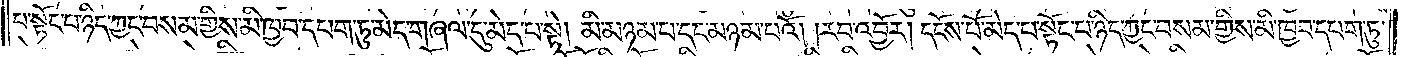པ་སྟོང་པ་ཉིད་ཀྱང་བསམ་གྱིས་མི་ཁྱབ་དཔག་ཏུ་མེད་གཞལ་དུ་མེད་པ་སྟེ། མི་མཉམ་པ་དང་མཉམ་པའོ། །རབ་འབྱོར། དངོས་པོ་མེད་པ་སྟོང་པ་ཉིད་ཀྱང་བསམ་གྱིས་མི་ཁྱབ་དཔག་ཏུ་
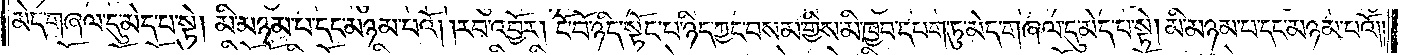མེད་གཞལ་དུ་མེད་པ་སྟེ། མི་མཉམ་པ་དང་མཉམ་པའོ། །རབ་འབྱོར། ངོ་བོ་ཉིད་སྟོང་པ་ཉིད་ཀྱང་བསམ་གྱིས་མི་ཁྱབ་དཔག་ཏུ་མེད་གཞལ་དུ་མེད་པ་སྟེ། མི་མཉམ་པ་དང་མཉམ་པའོ། །
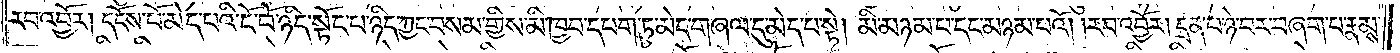རབ་འབྱོར། དངོས་པོ་མེད་པའི་ངོ་བོ་ཉིད་སྟོང་པ་ཉིད་ཀྱང་བསམ་གྱིས་མི་ཁྱབ་དཔག་ཏུ་མེད་གཞལ་དུ་མེད་པ་སྟེ། མི་མཉམ་པ་དང་མཉམ་པའོ། །རབ་འབྱོར། དྲན་པ་ཉེ་བར་བཞག་པ་རྣམས་
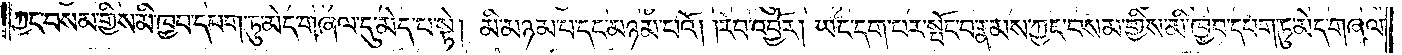ཀྱང་བསམ་གྱིས་མི་ཁྱབ་དཔག་ཏུ་མེད་གཞལ་དུ་མེད་པ་སྟེ། མི་མཉམ་པ་དང་མཉམ་པའོ། །རབ་འབྱོར། ཡང་དག་པར་སྤོང་བ་རྣམས་ཀྱང་བསམ་གྱིས་མི་ཁྱབ་དཔག་ཏུ་མེད་གཞལ་
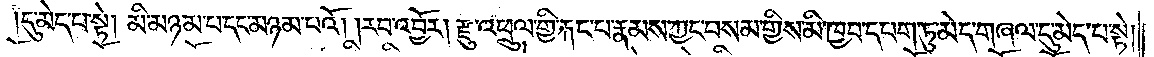དུ་མེད་པ་སྟེ། མི་མཉམ་པ་དང་མཉམ་པའོ། །རབ་འབྱོར།རྫུ་འཕྲུལ་གྱི་རྐང་པ་རྣམས་ཀྱང་བསམ་གྱིས་མི་ཁྱབ་དཔག་ཏུ་མེད་གཞལ་དུ་མེད་པ་སྟེ།
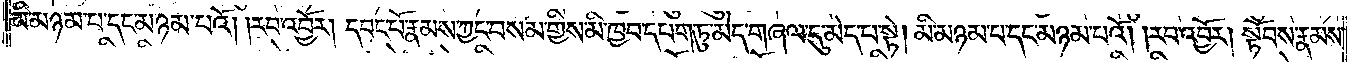མི་མཉམ་པ་དང་མཉམ་པའོ། །རབ་འབྱོར།དབང་པོ་རྣམས་ཀྱང་བསམ་གྱིས་མི་ཁྱབ་དཔག་ཏུ་མེད་གཞལ་དུ་མེད་པ་སྟེ། མི་མཉམ་པ་དང་མཉམ་པའོ། །རབ་འབྱོར། སྟོབས་རྣམས་
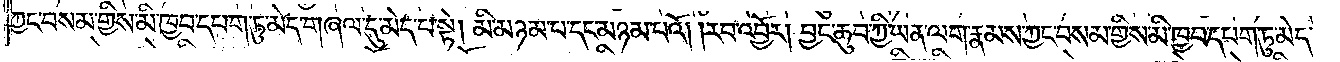ཀྱང་བསམ་གྱིས་མི་ཁྱབ་དཔག་ཏུ་མེད་གཞལ་དུ་མེད་པ་སྟེ། མི་མཉམ་པ་དང་མཉམ་པའོ། །རབ་འབྱོར། བྱང་ཆུབ་ཀྱི་ཡན་ལག་རྣམས་ཀྱང་བསམ་གྱིས་མི་ཁྱབ་དཔག་ཏུ་མེད་
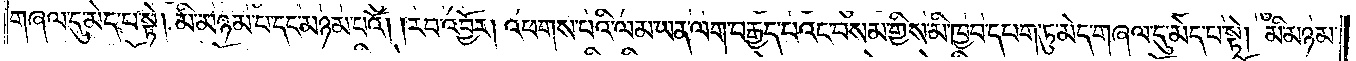གཞལ་དུ་མེད་པ་སྟེ། མི་མཉམ་པ་དང་མཉམ་པའོ། །རབ་འབྱོར། འཕགས་པའི་ལམ་ཡན་ལག་བརྒྱད་པའང་བསམ་གྱིས་མི་ཁྱབ་དཔག་ཏུ་མེད་གཞལ་དུ་མེད་པ་སྟེ། མི་མཉམ་
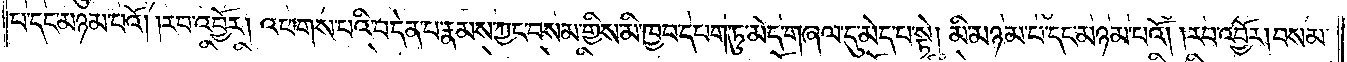པ་དང་མཉམ་པའོ། །རབ་འབྱོར། འཕགས་པའི་བདེན་པ་རྣམས་ཀྱང་བསམ་གྱིས་མི་ཁྱབ་དཔག་ཏུ་མེད་གཞལ་དུ་མེད་པ་སྟེ། མི་མཉམ་པ་དང་མཉམ་པའོ། །རབ་འབྱོར། བསམ་
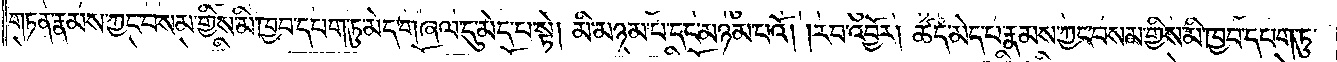གཏན་རྣམས་ཀྱང་བསམ་གྱིས་མི་ཁྱབ་དཔག་ཏུ་མེད་གཞལ་དུ་མེད་པ་སྟེ། མི་མཉམ་པ་དང་མཉམ་པའོ། །རབ་འབྱོར། ཚད་མེད་པ་རྣམས་ཀྱང་བསམ་གྱིས་མི་ཁྱབ་དཔག་ཏུ་
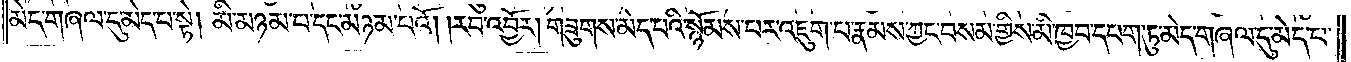མེད་གཞལ་དུ་མེད་པ་སྟེ། མི་མཉམ་པ་དང་མཉམ་པའོ། །རབ་འབྱོར། གཟུགས་མེད་པའི་སྙོམས་པར་འཇུག་པ་རྣམས་ཀྱང་བསམ་གྱིས་མི་ཁྱབ་དཔག་ཏུ་མེད་གཞལ་དུ་མེད་པ་
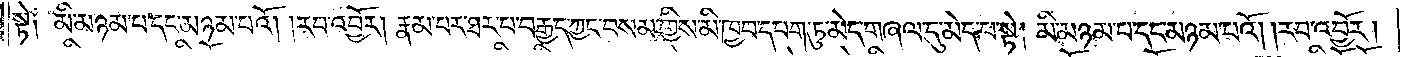སྟེ༑ མི་མཉམ་པ་དང་མཉམ་པའོ། །རབ་འབྱོར། རྣམ་པར་ཐར་པ་བརྒྱད་ཀྱང་བསམ་གྱིས་མི་ཁྱབ་དཔག་ཏུ་མེད་གཞལ་དུ་མེད་པ་སྟེ། མི་མཉམ་པ་དང་མཉམ་པའོ། །རབ་འབྱོར།
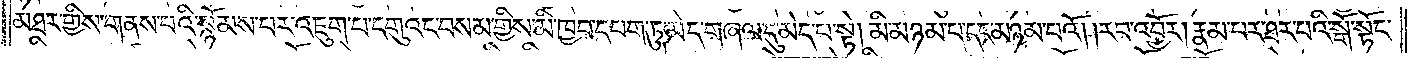མཐར་གྱིས་གནས་པའི་སྙོམས་པར་འཇུག་པ་དགུའང་བསམ་གྱིས་མི་ཁྱབ་དཔག་ཏུ་མེད་གཞལ་དུ་མེད་པ་སྟེ། མི་མཉམ་པ་དང་མཉམ་པའོ། །རབ་འབྱོར། རྣམ་པར་ཐར་པའི་སྒོ་སྟོང་
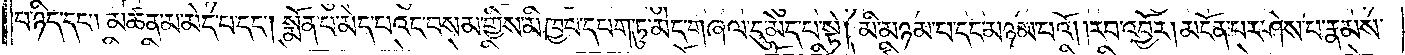པ་ཉིད་དང༌། མཚན་མ་མེད་པ་དང༌། སྨོན་པ་མེད་པའང་བསམ་གྱིས་མི་ཁྱབ་དཔག་ཏུ་མེད་གཞལ་དུ་མེད་པ་སྟེ། མི་མཉམ་པ་དང་མཉམ་པའོ། །རབ་འབྱོར། མངོན་པར་ཤེས་པ་རྣམས་
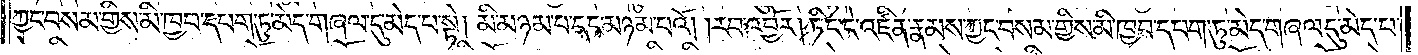ཀྱང་བསམ་གྱིས་མི་ཁྱབ་དཔག་ཏུ་མེད་གཞལ་དུ་མེད་པ་སྟེ། མི་མཉམ་པ་དང་མཉམ་པའོ། །རབ་འབྱོར། ཏིང་ངེ་འཛིན་རྣམས་ཀྱང་བསམ་གྱིས་མི་ཁྱབ་དཔག་ཏུ་མེད་གཞལ་དུ་མེད་པ་
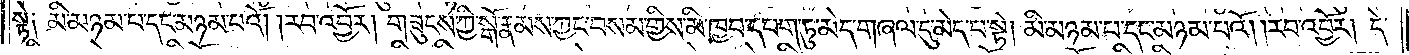སྟེ༑ མི་མཉམ་པ་དང་མཉམ་པའོ། །རབ་འབྱོར། གཟུངས་ཀྱི་སྒོ་རྣམས་ཀྱང་བསམ་གྱིས་མི་ཁྱབ་དཔག་ཏུ་མེད་གཞལ་དུ་མེད་པ་སྟེ། མི་མཉམ་པ་དང་མཉམ་པའོ། །རབ་འབྱོར། དེ་
